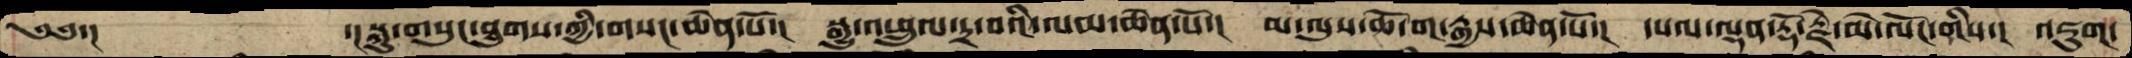༄༅་།   ་།སྐུ་གསུང་ཐུགས་ཀྱི་གསང་ཆེན་པོ་།  སྒྱུ་འཕྲུལ་དྲ་བའི་ལམ་ཆེན་པོ་།  མ་ལུས་ཆོ་ག་རྒྱས་ཆེན་པོ་།  དཔལ་ལྡན་རྡོ་རྗེ་མེ་ལོང་གིས་།  འཇུག་
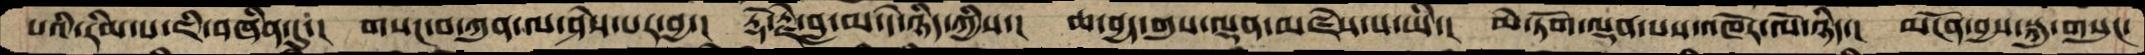པའི་རིམ་པ་ཇི་བཞིན་དུ་།  གསང་བ་ཀུན་ལ་ཤེས་པར་བྱ་།  རྡོ་རྗེ་བླ་མ་དེ་ཉིད་ཀྱིས་།  ཆ་བྱད་གུས་ལྡན་མཛེས་པ་ཡི་།  མེ་ཏོག་ལྡན་པས་འཁོར་ལོ་ཉིད་།  མངོན་བྱས་སྐུ་གསུང་
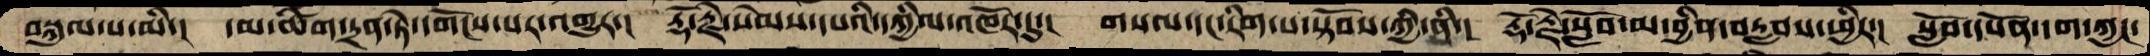བསྐུལ་པ་མི་།   དམ་ཚིག་དྲན་ཏེ་དགོངས་པར་འགྱུར་།  རྡོ་རྗེ་སེམས་དཔའི་དཀྱིལ་འཁོར་དུ་།  གསལ་དང་རིག་པ་སྟོབས་ཀྱི་ནི་།  རྡོ་རྗེ་སློབ་མ་བྱིན་བརླབས་ཕྱིར་།  སློབ་དཔོན་དག་ཀྱང་
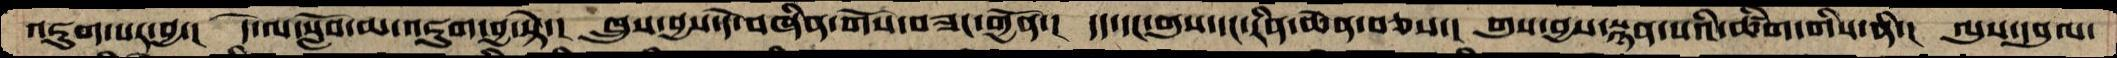འཇུག་པར་བྱ་།   དེ་ལ་སློབ་མ་འཇུག་བྱ་སྟེ་།   ཁྲུས་བྱས་དེ་བཞིན་གོས་བཟང་གྱོན་།  དད་དང་གུས་དང་རིན་ཆེན་བཅས་།  གུས་བྱས་སྙན་པའི་ཚིག་གིས་ནི་།  ལུས་དབུལ་
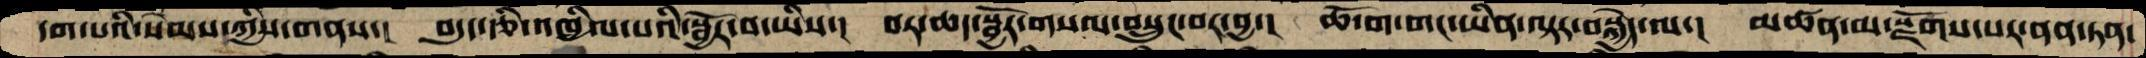དག་པའི་སེམས་ཀྱིས་གནས་།  བདུད་རྩི་འཁྱིལ་པའི་སྦྱོར་བ་ཡིས་།  བར་ཆད་སྦྱོར་གསལ་བསྲུང་བར་བྱ་།  ཆོ་ག་གང་ཡིན་ལྟར་བསྐྱེད་ལ་།  མཚན་མ་སྫོགས་པར་ནན་ཏན་
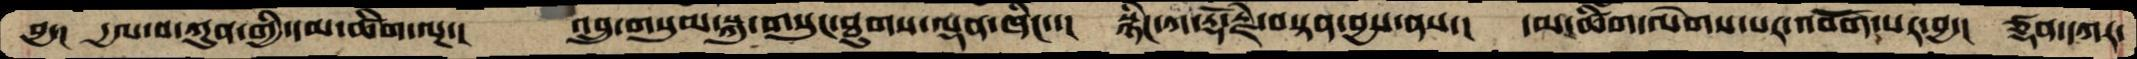བྱ་།   དྱལ་བ་ཀུན་གྱི་དམ་ཚིག་ལྔ་།  འབྲུ་གསུམ་སྐུ་གསུང་ཐུགས་ལྡན་ཞིང་་།  སྙིང་ཀ་རྡོ་རྗེ་བསྟན་བྱས་ནས་།  དམ་ཚིག་ལེགས་པར་འབོག་པར་བྱ་།  ཙྡན་དཀར་
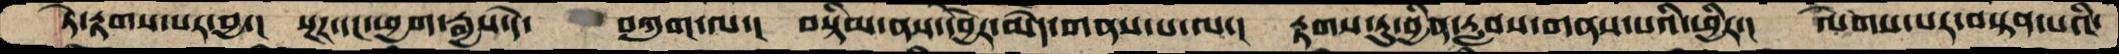ཏེ་རྟགས་པར་བྱ་།  སྔཌ་དང་ཕྱག་རྒྱས་དེ་  བཀུག་ལ་།  བསྟིམ་ནས་དབྱེར་མེད་གནས་པ་ལ་།  རྟགས་ཏུ་བྱིན་རླབས་གནས་པའི་ཕྱིར་།  ལེགས་པར་བསྟན་པའི་
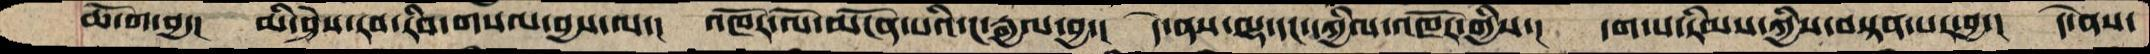ཆོ་ག་བྱ་།  མི་ཤེས་རབ་རིབ་གསལ་བྱས་ལ་།  འཁོར་ལོ་མངོན་པའི་ང་རྒྱལ་བྱ་།  དེ་ནས་ལྷ་དང་དཀྱིལ་འཁོར་གྱིས་།  དག་པ་རིམས་ཀྱིས་བསྟན་པར་བྱ་།  དེ་ནས་
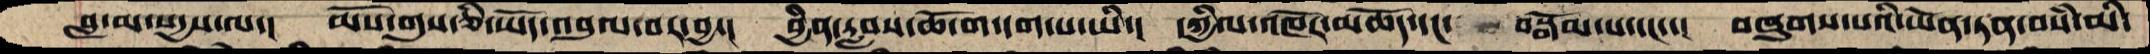བླ་མ་སདྱས་ལ་།  མོས་གུས་ཅི་ཡོད་འབུལ་བར་བྱྲ་།  བྱིན་རླབས་ཆོ་ག་དག་པ་ཡི་།  དཀྱིལ་འཁོར་མཆོད་དང་  བསྒོམ་པ་དང་་།  བཞུགས་པའི་ཡོན་ཏན་བསཾ་མི་
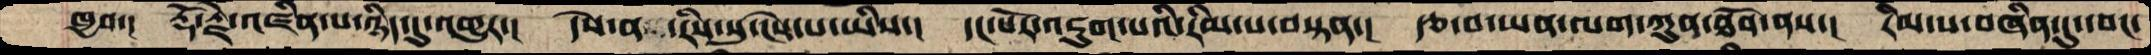ཁྱབ་།  རྡོ་རྗེ་འཛིན་པ་ཉིད་དུ་འགྱུར་།  དེས་ན་རིས་སུ་ངེས་པ་ཡིས་།  དང་པོར་འཇུག་པའི་རིམ་པ་བསྟན་།  རྩ་བ་ཡན་ལག་ཀུན་ཐོབ་ནས་།  རིམ་པ་བཞིན་དུ་དབང་
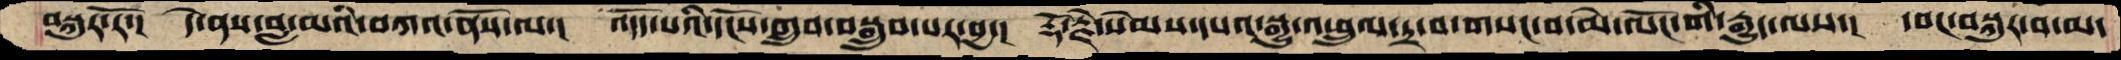བསྐུར་རོ་།  དེ་ནས་བླ་མའི་བཀའ་ནོས་ལ་།  འདོད་པའི་དངོས་གྲུབ་བསྒྲུབ་པར་བྱ་།  རྡོ་རྗེ་སེམས་དཔའ་སྒྱུ་འཕྲུལ་དྲ་བ་གསང་བ་མེ་ལོང་གི་རྒྱུད་ལས་།  དབང་བསྐུར་བ་མ་
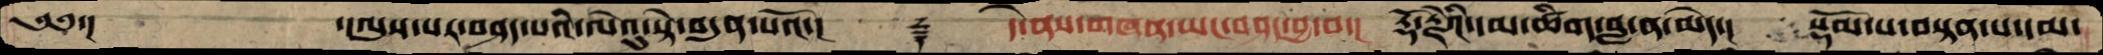༄༅་།     ་།ལུས་པར་བཤད་པའི་ལེའུ་སྟེ་བདུན་པའོ་།     ࿑    དེ་ནས་གཞན་ཡང་བཤད་བྱ་བ་།  རྡོ་རྗེའི་དམ་ཚིག་བླ་ན་མེད་།  སྡོམ་པ་བསྟན་པ་དམ་
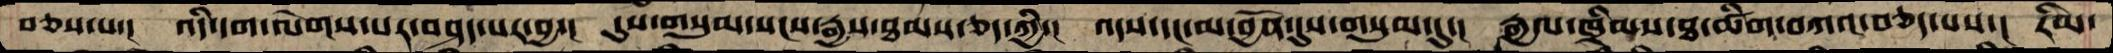བཅས་པ་།  འདི་དག་ལེགས་པར་བཤད་པར་བྱ་།  དུས་གསུམ་སངས་རྒྱས་ཐམས་ཅད་ཀྱི་།  འདས་དང་མ་བྱོན་དུས་གསུམ་དུ་།  རྒྱལ་ཁྲིམས་ཐ་ཚིག་བཀའ་བཅད་པས་།  རིམ་
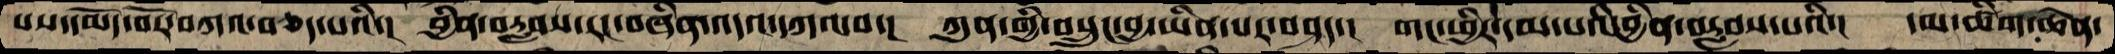པས་དམོད་བོར་བཀའ་བཅད་པའི་།  བྱིན་བརླབས་རང་བཞིན་འདའ་དཀའ་བ་།  ཀུན་གྱི་བསྲུང་བྱ་ཡིན་པར་བཤད་།  གང་ཕྱིར་དམ་པའི་བྱིན་བརླབས་པའི་།  དམ་ཚིག་ཆེན་
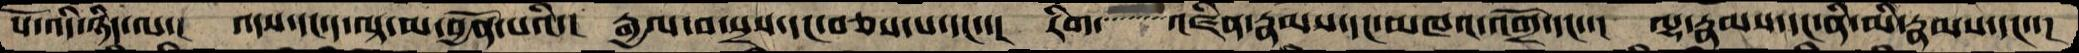སོ་འདི་ཉིད་ལ་།  འདས་དང་ད་ལྟ་མ་བྱོན་པའི་།  རྒྱལ་བ་སྲས་དང་བཅས་པ་དང་་།  རིག་་་་་་་་འཛིན་རྣམས་དང་མཁའ་འགྲོ་དང་་།  ལྷ་རྣམས་དང་ནི་མི་རྣམས་དང་་།
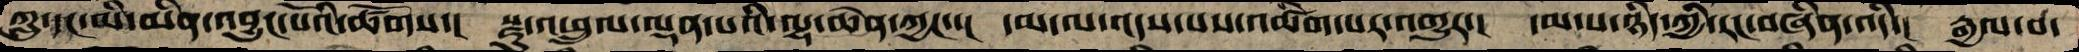ཀླུ་དང་མི་མིན་འབྱུང་པོའི་ཚོགས་།   སྫུ་འཕྲུལ་ལྡན་པའི་ལྷ་ཆེན་ཀྱང་་།  དམ་ལ་འདས་པས་འཚིག་པར་འགྱུར་།   དམ་པ་ཉིད་ཀྱི་རང་བཞིན་འདི་།  རྒྱལ་བ་
